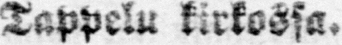Tappelu kirkossa.
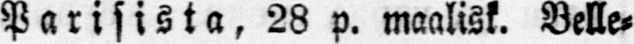Parisista, 28 p. maalisk. Belle-
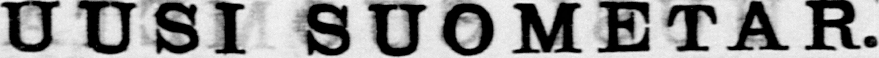UUSI SUOMETAR.
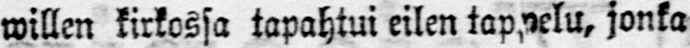willen kirkossa tapahtui eilen tappelu, jonka
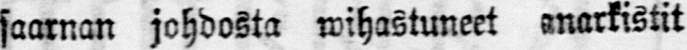saarnan johdosta wihastuneet anarkistit
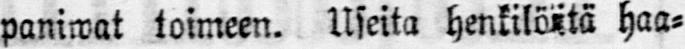paniwat toimeen. Useita henkilöntä haa-
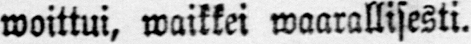woittui, waikkei waarallisesti.
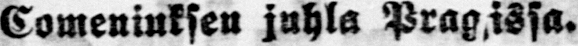Comeniuksen juhla Pragissa.
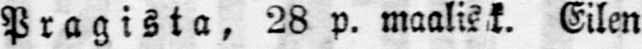Pragista, 28 p. maalisk. Eilen
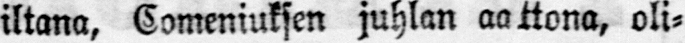iltana, Comeniuksen juhlan aattona, oli-
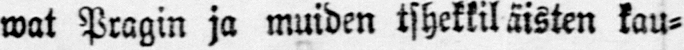wat Pragin ja muiden tshekkiläisten kau-
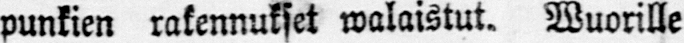punkien rakennukset walaistut. Wuorille
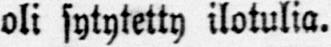oli sytytetty ilotulia.
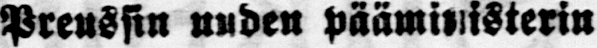Preussin uuden paäministerin
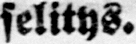selitys.
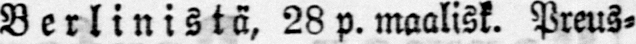Berlinistä, 28 p. maalisk. Preus-
